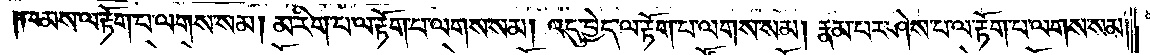ཁམས་ལ་རྟོག་པ་ལགས་སམ། མ་རིག་པ་ལ་རྟོག་པ་ལགས་སམ། འདུ་བྱེད་ལ་རྟོག་པ་ལགས་སམ། རྣམ་པར་ཤེས་པ་ལ་རྟོག་པ་ལགས་སམ།
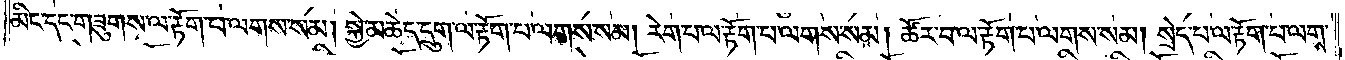མིང་དང་གཟུགས་ལ་རྟོག་པ་ལགས་སམ། སྐྱེ་མཆེད་དྲུག་ལ་རྟོག་པ་ལགས་སམ། རེག་པ་ལ་རྟོག་པ་ལགས་སམ། ཚོར་བ་ལ་རྟོག་པ་ལགས་སམ། སྲེད་པ་ལ་རྟོག་པ་ལགས་
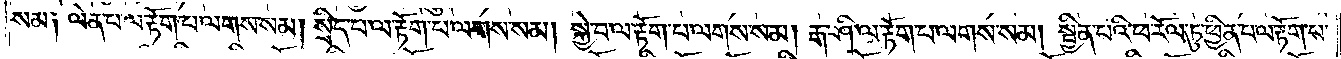སམ༑ ལེན་པ་ལ་རྟོག་པ་ལགས་སམ། སྲིད་པ་ལ་རྟོག་པ་ལགས་སམ། སྐྱེ་བ་ལ་རྟོག་པ་ལགས་སམ། རྒ་ཤི་ལ་རྟོག་པ་ལགས་སམ། སྦྱིན་པའི་ཕ་རོལ་ཏུ་ཕྱིན་པ་ལ་རྟོག་པ་
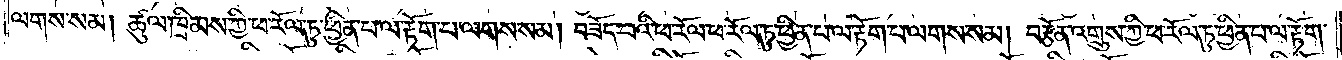ལགས་སམ། ཚུལ་ཁྲིམས་ཀྱི་ཕ་རོལ་ཏུ་ཕྱིན་པ་རྟོག་པ་ལགས་སམ། བཟོད་པའི་ཕ་རོལ་ཏུ་ཕྱིན་པ་ལ་རྟོག་པ་ལགས་སམ། བརྩོན་འགྲུས་ཀྱི་ཕ་རོལ་ཏུ་ཕྱིན་པ་ལ་རྟོག་
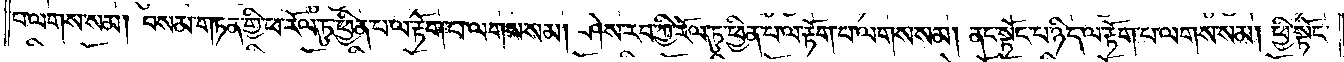པ་ལགས་སམ། བསམ་གཏན་གྱི་ཕ་རོལ་ཏུ་ཕྱིན་པ་ལ་རྟོག་པ་ལགས་སམ། ཤེས་རབ་ཀྱི་ཕ་རོལ་ཏུ་ཕྱིན་པ་ལ་རྟོག་པ་ལགས་སམ། ནང་སྟོང་པ་ཉིད་ལ་རྟོག་པ་ལགས་སམ། ཕྱི་སྟོང་
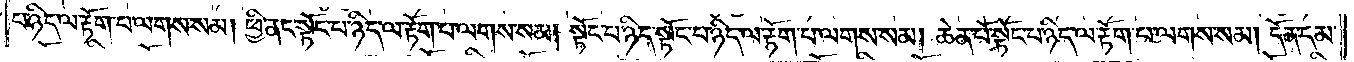པ་ཉིད་ལ་རྟོག་པ་ལགས་སམ། ཕྱི་ནང་སྟོང་པ་ཉིད་ལ་རྟོག་པ་ལགས་སམ། སྟོང་པ་ཉིད་སྟོང་པ་ཉིད་ལ་རྟོག་པ་ལགས་སམ། ཆེན་པོ་སྟོང་པ་ཉིད་ལ་རྟོག་པ་ལགས་སམ། དོན་དམ་
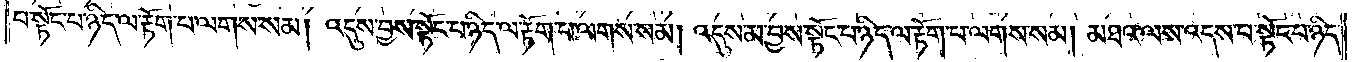པ་སྟོང་པ་ཉིད་ལ་རྟོག་པ་ལགས་སམ། འདུས་བྱས་སྟོང་པ་ཉིད་ལ་རྟོག་པ་ལགས་སམ། འདུས་མ་བྱས་སྟོང་པ་ཉིད་ལ་རྟོག་པ་ལགས་སམ། མཐའ་ལས་འདས་པ་སྟོང་པ་ཉིད་
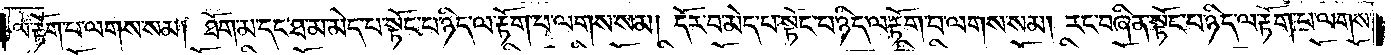ལ་རྟོག་པ་ལགས་སམ། ཐོག་མ་དང་ཐ་མ་མེད་པ་སྟོང་པ་ཉིད་ལ་རྟོག་པ་ལགས་སམ། དོར་བ་མེད་པ་སྟོང་པ་ཉིད་ལ་རྟོག་པ་ལགས་སམ། རང་བཞིན་སྟོང་པ་ཉིད་ལ་རྟོག་པ་ལགས་
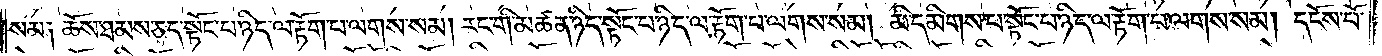སམ༑ ཆོས་ཐམས་ཅད་སྟོང་པ་ཉིད་ལ་རྟོག་པ་ལགས་སམ། རང་གི་མཚན་ཉིད་སྟོང་པ་ཉིད་ལ་རྟོག་པ་ལགས་སམ། མི་དམིགས་པ་སྟོང་པ་ཉིད་ལ་རྟོག་པ་ལགས་སམ། དངོས་པོ་
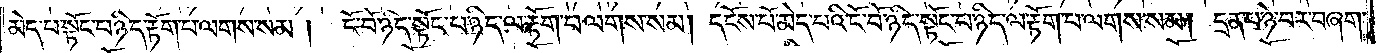མེད་པ་སྟོང་པ་ཉིད་ལ་རྟོག་པ་ལགས་སམ། ངོ་བོ་ཉིད་སྟོང་པ་ཉིད་ལ་རྟོག་པ་ལགས་སམ། དངོས་པོ་མེད་པའི་ངོ་བོ་ཉིད་སྟོང་པ་ཉིད་ལ་རྟོག་པ་ལགས་སམ། དྲན་པ་ཉེ་བར་བཞག་
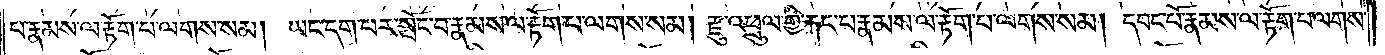པ་རྣམས་ལ་རྟོག་པ་ལགས་སམ། ཡང་དག་པར་སྤོང་བ་རྣམས་ལ་རྟོག་པ་ལགས་སམ། རྫུ་འཕྲུལ་གྱི་རྐང་པ་རྣམས་ལ་རྟོག་པ་ལགས་སམ། དབང་པོ་རྣམས་ལ་རྟོག་པ་ལགས་
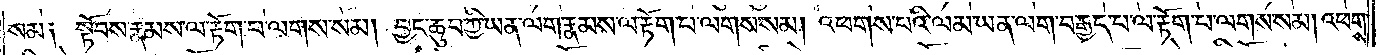སམ༑ སྟོབས་རྣམས་ལ་རྟོག་པ་ལགས་སམ། བྱང་ཆུབ་ཀྱི་ཡན་ལག་རྣམས་ལ་རྟོག་པ་ལགས་སམ། འཕགས་པའི་ལམ་ཡན་ལག་བརྒྱད་པ་ལ་རྟོག་པ་ལགས་སམ། འཕགས་
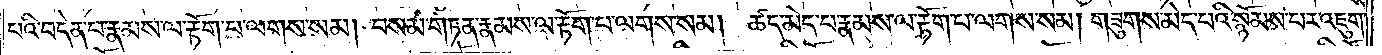པའི་བདེན་པ་རྣམས་ལ་རྟོག་པ་ལགས་སམ། བསམ་གཏན་རྣམས་ལ་རྟོག་པ་ལགས་སམ། ཚད་མེད་པ་རྣམས་ལ་རྟོག་པ་ལགས་སམ། གཟུགས་མེད་པའི་སྙོམས་པར་འཇུག་
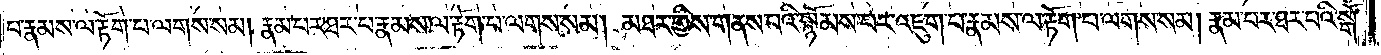པ་རྣམས་ལ་རྟོག་པ་ལགས་སམ། རྣམ་པར་ཐར་པ་རྣམས་ལ་རྟོག་པ་ལགས་སམ། མཐར་གྱིས་གནས་པའི་སྙོམས་པར་འཇུག་པ་རྣམས་ལ་རྟོག་པ་ལགས་སམ། རྣམ་པར་ཐར་པའི་སྒོ་
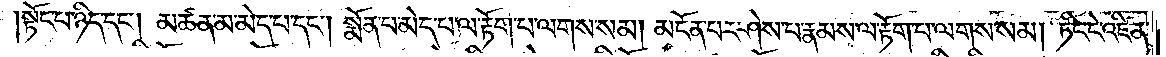སྟོང་པ་ཉིད་དང༌། མཚན་མ་མེད་པ་དང༌། སྨོན་པ་མེད་པ་ལ་རྟོག་པ་ལགས་སམ། མངོན་པར་ཤེས་པ་རྣམས་ལ་རྟོག་པ་ལགས་སམ། ཏིང་ངེ་འཛིན་
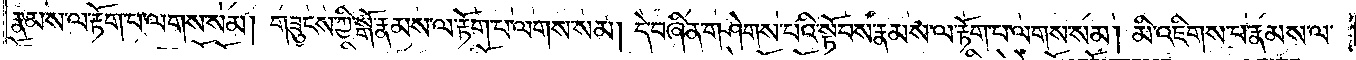རྣམས་ལ་རྟོག་པ་ལགས་སམ། གཟུངས་ཀྱི་སྒོ་རྣམས་ལ་རྟོག་པ་ལགས་སམ། དེ་བཞིན་གཤེགས་པའི་སྟོབས་རྣམས་ལ་རྟོག་པ་ལགས་སམ། མི་འཇིགས་པ་རྣམས་ལ་
